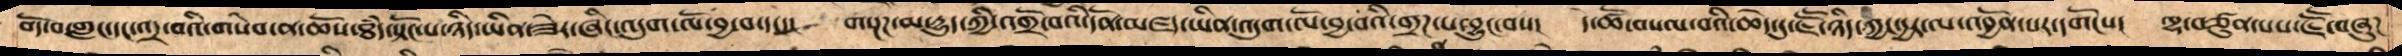བོད་བ་གླང་དང་འདྲ་བའི་གསེབ་ན་ཆོས་ཐཾད་སྟོང་པ་ཉིད་ཡིན་ཟེར་ཞིང་འདུག་ལོ་བྱ་བ་དང་།    གསྔཌ་མ་དྱུད་ཀྱི་འགྲོ་བའི་དོན་མཛད་ཡིན་་འདུག་ལོ་བྱ་བའི་གྲཌ་པ་བྱུང་བས།   དེ་ཚོ་གསལ་བའི་ཆེད་དུ་ཇཽ་ཉིད་ཀྱི་དྱར་ལ་འབྱོན་པར་དགོངས།   ལྷ་བཙུན་པས་ཇཽ་བཞུཌ
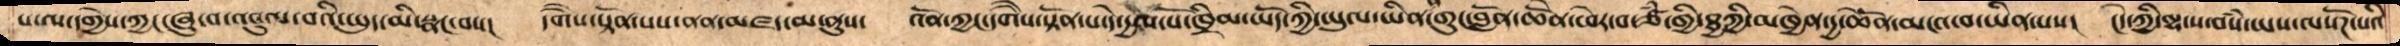པ་ལ་དགྱེས་ཀྱང་ཞུ་བ་འབུལ་བའི་ཡུད་མི་སྣང་བས།   དགཻས་སྟོན་པས་ནན་མཛད་མ་ནུས།   འོན་ཀྱང་དགཻས་སྟོན་པ་དེ་དྱལ་པོ་ཁྲིམ་ཡོད་ཀྱི་ཡུལ་ཡིན་ན་གུང་བློན་ཆེནོ་ཕེར་བ་ཙཾ་གྱི་ཐྱཀྱི་མཁྱེན་དྱ་ཆེནོ་མངའ་བ་ཡིན་པས།  ངེད་ཀྱི་ལྷ་ས་བསཾ་ཡས་ལསོཌ་པའི
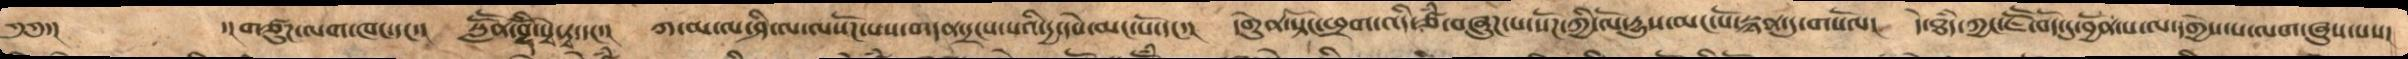༄༅་།        ་།གཙུཌ་ལག་ཁང་དང་།    སླཽན་བྷོྀ་སྭེ་ཏྭ་དང་།   ཀ་མ་ལ་ཤི་ལ་ལསོཌ་པས་གདན་དྲངས་པའི་དྱ་དཔེ་མང་པོ་དང་།   དགེུན་སྟོང་ཕྲག་འདི་ཙཾ་བཞུཌ་པ་སོཌ་ཀྱི་ལོ་དྱུས་མང་པོ་སྙན་དུ་གསོལ།    དེ་ཐཾད་ཀྱང་ཇཽ་བོད་དུ་བྱོན་པ་ལ་དགྱེས་པ་ལག་ཞུས་པས།
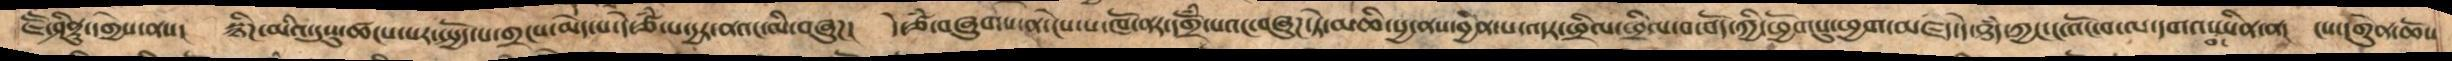ཇཽ་ཤིནུ་དགྱེས་ནས།   སྙིཌ་མའི་དུསུ་ཚངས་པར་སྤྱོད་པ་གྲངས་མེད་པ་དེ་ཙཾ་པ་དྱར་ནའང་མི་བཞུཌ།    དེ་ཙཾ་བཞུགས་ན་ངེས་པ་ཁོ་ནར་དགྲོཾ་པའང་བཞུཌ་ཏེ་མཆི་སྱ་ནས་བྱིན་པ་འདར་ཕྲིལ་ཕྲིལ་པ་བོད་ཀྱི་ཕྱོགསུ་ཕྱག་མཛད་དེ་ཐཾད་ཀྱང་འོང་བ་ལ་དགའ་བ་ཡིན་ན།   ངས་དགེུན་ཆོས
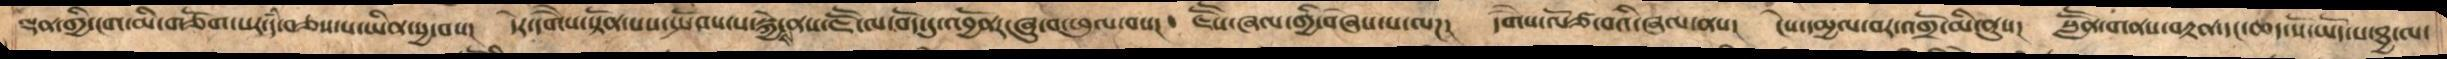ལྡན་གྱི་ངག་མི་གཅོག་པར་དཾ་བཅས་པ་ཡིན་སྱ་པས།   དེར་དགཻས་སྟོན་པས་སྤོབས་པ་སྐྱེས་ནས་ཇཽ་ལ་བོད་དུ་འབྱོནར་ཞུ་བ་ཕུལ་བས།   ཇཽས་ཞལ་གྱི་བཞེས་པ་ལཌ།   དགཻས་ལོ་ཙ་བའི་ཞལ་ནས།   ངས་དམྱལ་བར་འགྲོ་མི་ནུས།   སླཽན་གནས་བརྟན་དང་ཆད་སོ་ཡོད་པ་ཐྱ་ལ་
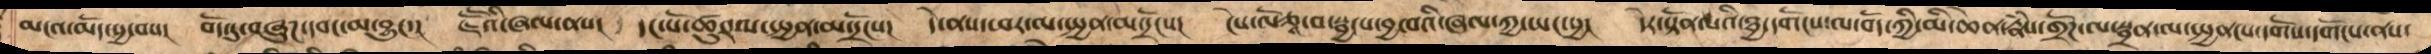མངའ་མོད་སྱ་པས། བོད་དུ་བཞུཌ་དབང་མ་བྱུང་།   ཇཽའི་ཞལ་ནས།   དང་པོ་ཚུར་ལ་སྤྱན་མ་དྲོངས།   དེ་ནས་ཕར་ལ་སྤྱན་མ་དྲོངས།  ངས་ལོཙཱ་བ་སྦྱངས་བྱ་བའི་ཞལ་ཀྱ་ཡང་སྱ།   དེར་སྟོན་པའི་ཐྱ་དགོངས་ལ་བོད་ཀྱི་མི་ཆེན་རྣཾས་གྲོཌ་ལ་སྦྲན་ལ་སྤྱནངས་དགོས་དགོངས་ནས་
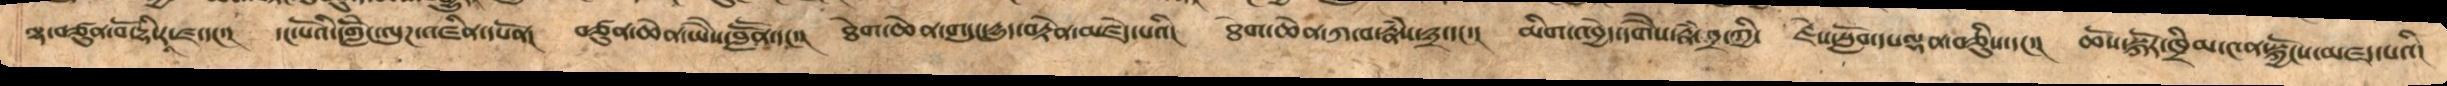ལྷ་བཙུན་བོ་དྷི་རཱ་ཛ་དང་།    དང་པོའི་དགླེངོ་ལུཌ་འཛིན་དཔོན།   བཙུན་ཆེན་ཡཻས་བླཽན་དང་།   ཐེག་ཆེན་གདུང་དྱུད་བརྟེན་མཛེད་པའི།   ཐེག་ཆེན་ཀ་བ་རྣཾས་༣་དང་།   མིག་འབྱེད་དགཻས་རྣཾས་༢་ཀྱི།    རྗེས་སློབ་དཔལྡན་བཅིུས་དང་།   ཆོས་སྐོར་ཁྲིམ་༤ན་སྐྱོངས་མཛད་པའི།
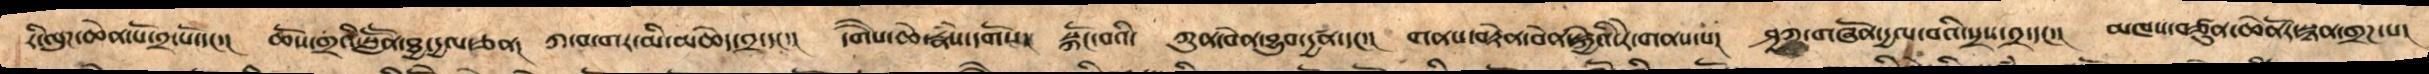རིང་ལུཌ་ཆེན་པོ་༢་པོ་དང་།   ཆོས་གྲྭའི་སླཽན་ཐྱ་དྱལ་ཅན།   ཀ་བ་གར་མི་མཆེད་༢དང་།   དགཻས་ཆེ་རྣཾས་དགོངས།   སྐོང་བའི།   ཀུན་བེན་བྱུབ་དྱཚན་དང་།   གནས་བརྟེན་བེན་སྐྱེའི་རེ་གནས་པ།   ཤཱཀ་གཞོན་དྱལ་བའི་སྲས་༢་དང་།   མཁས་བཙུན་ཆེནོར་སྙན་གྲཌ་པ།
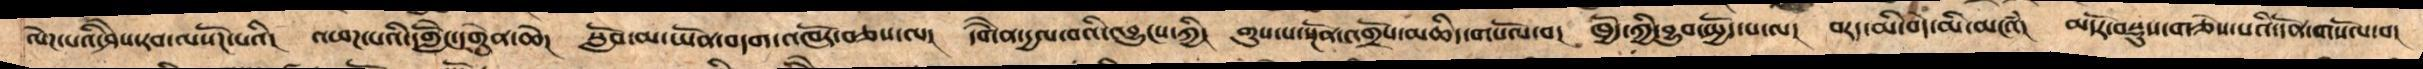ལེཌ་པའི་ཤེས་རབ་ལསོཌ་པའི།   འཕཌ་པའི་དགླེངོ་དགེུན་ཆེ།    སློབ་མ་ཡོན་བདག་འཁོར་བཅས་ལ།   དགཻན་དྱལ་བའི་འབྱུངས་ཀྱི།  གུས་པ་སྔོན་འགྲོས་མཆིད་གསོལ་བ། ཁྱེད་ཀྱི་བྱུབ་སྤྱོད་པ་ལ། བརད་མི་བདེ་མི་མངའཾ།  མདོར་བསྡུས་གཅེས་པའི་དོན་གསོལ་བ།
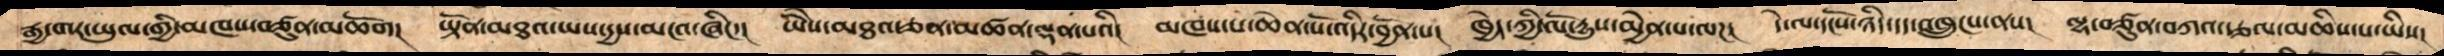རྒྱ་གར་ཡུལ་གྱི་མཁས་བཙུན་མཆོག།   ཡྟོན་མཐའ་ཡས་དྱས་མངའ་ཞིང་།  ཡཻས་མཐའ་ཅན་མཚན་ལྡན་པའི།   མཁས་པ་ཆེན་པོ་འདིར་བྱོན་པ།  ཁྱོད་ཀྱིས་ལོ་དྱུས་མྱེན་པ་ལཌ།   དེ་ལ་དངོས་ཉིད་དད་འཁྲུངས་ནས།   ལྷ་བཙུན་བཀའ་སྩལ་མཆིས་པ་ཡིས།
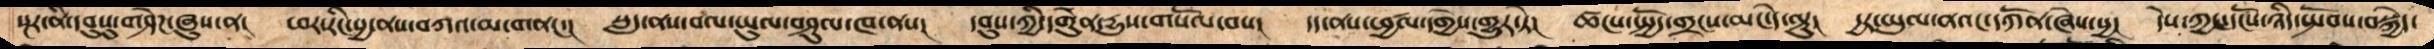སྔར་ནི་དབུསུ་གཤེཌ་ཞུས་ན།  ཕར་རིང་སྱ་ནས་བཀའ་མ་གནང་།  སླད་ནས་བལ་ཡུལ་བཤུལ་ཁ་ནས།  དབུས་ཀྱི་དགེུན་དྱུས་གསོལ་བས།  དད་ནས་ཕྱཚལ་དགྱེས་གྱུར་ཏེ།  ཚངས་སྤྱོད་གྲངས་མང་དེ་ལྟུ།  དྱར་ཡུལ་ནའང་དཀོན་ཞེས་སྱ།   དེས་ཀྱང་དངོས་ཉིད་སྤོབས་བསྐྱེད
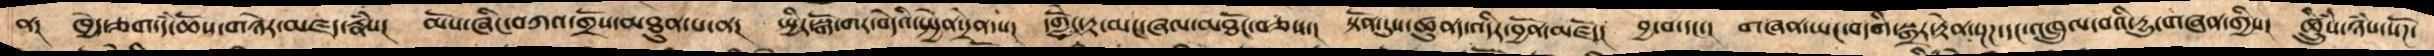ན།   ཁྱེད་ཅག་དཾ་ཆོས་གཉེར་མཛད་རྣཾས།   མོས་ཞིང་བཀའ་གྲོས་མཐུན་པ་ན།   སྤྱིར་སྒོས་གར་བདེའི་སྤྱན་དྲེན་པ།   དགླེངོ་རྟ་མང་ཞལ་མཐོང་བཅས།   སྟོན་དུས་ཚུནད་འདིར་འབྱོན་མཛོད།   བྱ་བ་དང་།   གཞན་ཡང་བདགི་སྒྲར་རྟེན་སྔཌ་དང་འཁྲུལ་བའི་དྱུ་གཞན་གྱིས།   ཚྲིུཾས་ཉཾས་སོཌ་
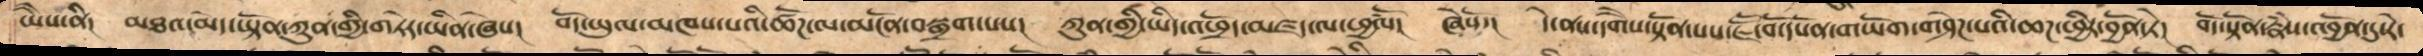ཡཻས་ནི།   མཐའ་མེད་ཡྟོན་ཀུན་གྱི་གཏེར་ཡིན་ཞེས།   བོད་ཡུལ་མཁས་པའི་ཚོཌ་ལ་མངོན་བསྒྲག་པས།  ཀུན་གྱི་ཡིད་འཕྲོད་མཛད་ལ་ཕྱཚལོ།  ཞེསོ་།   དེ་ནས་དགཻས་སྟོན་པས་ཇཽ་བོ་དཔོན་གཡོག་གཤེཌ་པའི་ཆཌ་ཕྱིར་བྱོན་ཏེ།   བོད་སྟོན་རྣཾས་འབྱོན་དུ་རེ་
